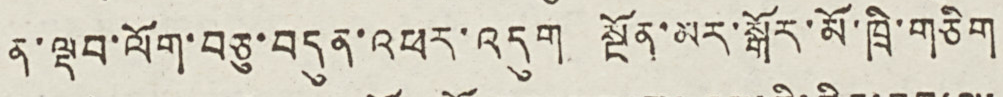ན་ལྡབ་ལོག་བཅུ་བདུན་འཕར་འདུག སྔོན་མར་སྒོར་མོ་ཁྲི་གཅིག
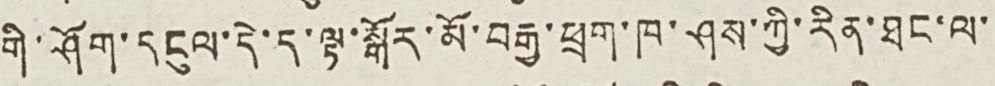གི་ཤོག་དངུལ་དེ་ད་ལྟ་སྒོར་མོ་བརྒྱ་ཕྲག་ཁ་ཤས་ཀྱི་རིན་ཐང་ལ་
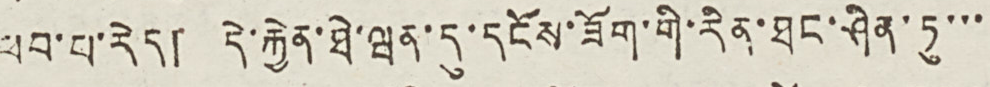ཕབ་པ་རེད། དེ་རྐྱེན་ཐེ་ཝན་དུ་དངོས་ཟོག་གི་རིན་ཐང་ཤིན་ཏུ་་་
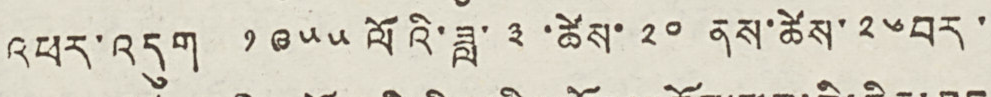འཕར་འདུག ༡༩༥༥ ལོའི་ཟླ་ ༣ ཚེས་ ༢༠ ནས་ཚེས་ ༢༦ བར་
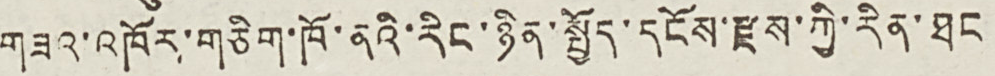གཟའ་འཁོར་གཅིག་ཁོ་ནའི་རིང་ཉིན་སྤྱོད་དངོས་རྫས་ཀྱི་རིན་ཐང
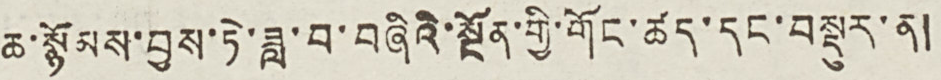ཆ་སྙོམས་བྱས་ཏེ་ཟླ་བ་བཞིའི་སྔོན་གྱི་གོང་ཚད་དང་བསྡུར་ན།
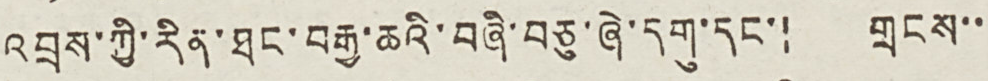འབྲས་ཀྱི་རིན་ཐང་བརྒྱ་ཆའི་བཞི་བཅུ་ཞེ་དགུ་དང་། གྲངས་་
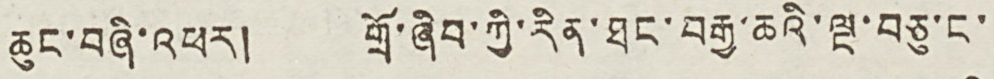ཆུང་བཞི་འཕར། གྲོ་ཞིབ་ཀྱི་རིན་ཐང་བརྒྱ་ཆའི་ལྔ་བཅུ་ང་
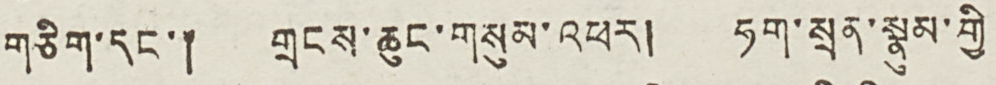གཅིག་དང་། གྲངས་ཆུང་གསུམ་འཕར། ཧག་སྲན་སྣུམ་གྱི
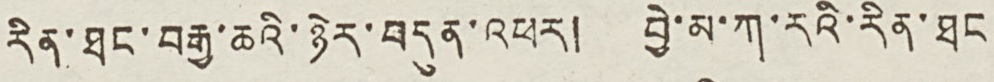རིན་ཐང་བརྒྱ་ཆའི་ཉེར་བདུན་འཕར། བྱེ་མ་ཀ་རའི་རིན་ཐང
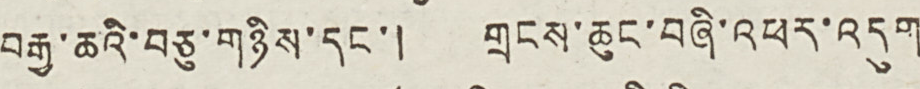བརྒྱ་ཆའི་བཅུ་གཉིས་དང་། གྲངས་ཆུང་བཞི་འཕར་འདུག
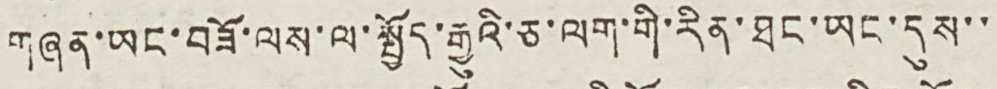གཞན་ཡང་བཟོ་ལས་ལ་སྤྱོད་རྒྱུའི་ཅ་ལག་གི་རིན་ཐང་ཡང་དུས་་
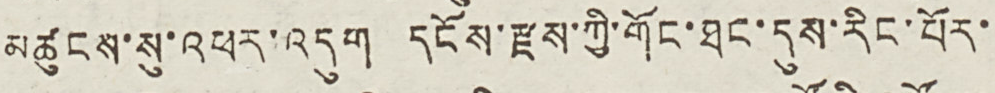མཚུངས་སུ་འཕར་འདུག དངོས་རྫས་ཀྱི་གོང་ཐང་དུས་རིང་པོར་
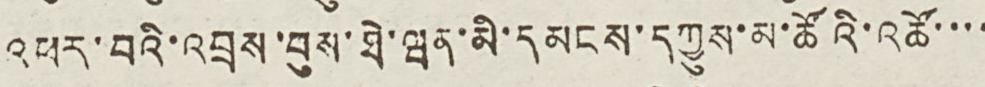འཕར་བའི་འབྲས་བུས་ཐེ་ཝན་མི་དམངས་དཀྱུས་མ་ཚོའི་འཚོ་་་་
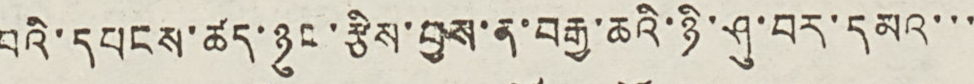པའི་དཔངས་ཚད་ཉུང་རྩིས་བྱས་ན་བརྒྱ་ཆའི་ཉི་ཤུ་བར་དམའ་་་
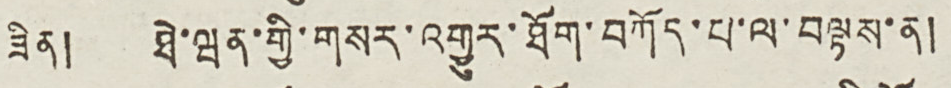ཟིན། ཐེ་ཝན་གྱི་གསར་འགྱུར་ཐོག་བཀོད་པ་ལ་བལྟས་ན།
